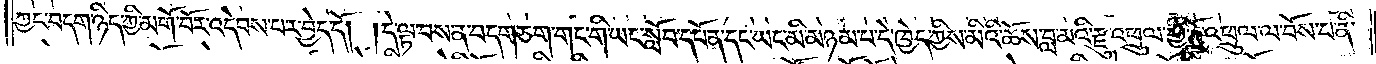ཀྱང་བདག་ཉིད་ཀྱི་མགོ་བོར་འདེབས་པར་བྱེད་དོ། །དེ་ལྟ་བས་ན་བདག་ཅག་གང་གི་ཡང་སློབ་དཔོན་དང་ཡང་མི་མཉམ་པ་དེ་ཁྱེད་ཀྱིས་མིའི་ཆོས་བླ་མའི་རྫུ་འཕྲུལ་གྱི་ཆོ་འཕྲུལ་ལ་བོས་པ་ནི་
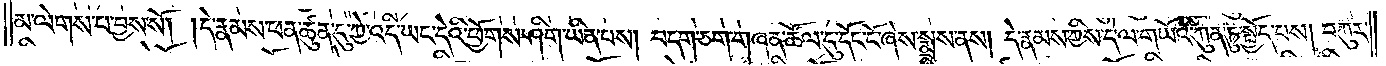མ་ལེགས་པ་བྱས་སོ། །དེ་རྣམས་ཕན་ཚུན་དུ་ཀྱེ་འདི་ཡང་དེའི་ཕྱོགས་ཤིག་ཡིན་པས། བདག་ཅག་གཞན་ཚོལ་དུ་དོང་ངོ་ཞེས་སྨྲས་ནས། དེ་རྣམས་ཀྱིས་དེ་ལ་གཡོའི་ཀུན་ཏུ་སྤྱོད་པས། བཀུར་
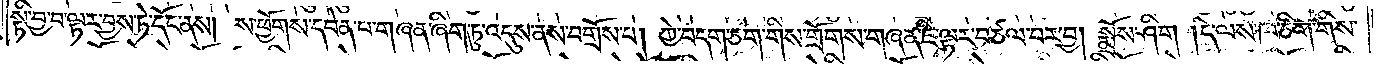སྟི་བྱ་བ་ལྟར་བྱས་ཏེ་དོང་ནས། ས་ཕྱོགས་དབེན་པ་གཞན་ཞིག་ཏུ་འདུས་ནས་བགྲོས་པ། ཀྱེ་བདག་ཅག་གིས་གྲོགས་གཞན་ཇི་ལྟར་བཙལ་བར་བྱ། སྨྲོས་ཤིག །དེ་ལས་ཁ་ཅིག་གིས་
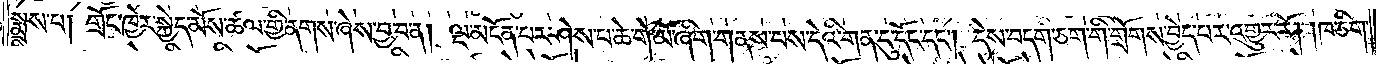སྨྲས་པ། གྲོང་ཁྱེར་སྐྱེད་མོས་ཚལ་གྱི་ནགས་ཞེས་བྱ་བ་ན། ལྔ་མངོན་པར་ཤེས་པ་ཆེ་གེ་མོ་ཞིག་གནས་པས་དེའི་གན་དུ་དོང་དང༌། དེས་བདག་ཅག་གི་གྲོགས་བྱེད་པར་འགྱུར་རོ། །ཁ་ཅིག་
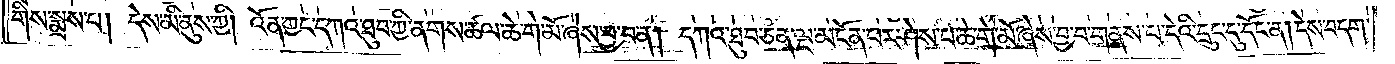གིས་སྨྲས་པ། དེས་མི་ནུས་ཀྱི། འོན་ཀྱང་དཀའ་ཐུབ་ཀྱི་ནགས་ཚལ་ཆེ་གེ་མོ་ཞེས་བྱ་བ་ན། དཀའ་ཐུབ་ཅན་ལྔ་མངོན་པར་ཤེས་པ་ཆེ་གེ་མོ་ཞེས་བྱ་བ་གནས་པ་དེའི་དྲུང་དུ་དོང་ན། དེས་བདག་
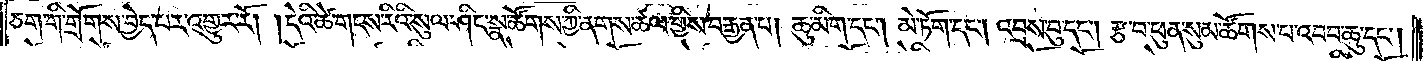ཅག་གི་གྲོགས་བྱེད་པར་འགྱུར་རོ། །དེའི་ཚེ་གངས་རིའི་སུལ་ཤིང་སྣ་ཚོགས་ཀྱི་ནགས་ཚལ་གྱིས་བརྒྱན་པ། ཆུ་མིག་དང༌། མེ་ཏོག་དང༌། འབྲས་བུ་དང༌། རྩ་བ་ཕུན་སུམ་ཚོགས་པ་འབབ་ཆུ་དང༌།
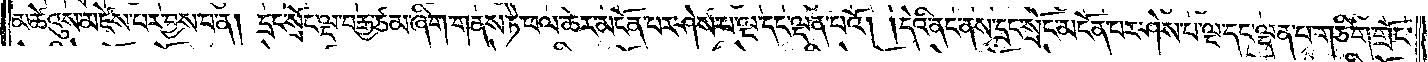མཚེའུས་མཛེས་པར་བྱས་པ་ན། དྲང་སྲོང་ལྔ་བརྒྱ་ཙམ་ཞིག་གནས་ཏེ་ཕལ་ཆེར་མངོན་པར་ཤེས་པ་ལྔ་དང་ལྡན་པའོ། །དེའི་ནང་ནས་དྲང་སྲོང་མངོན་པར་ཤེས་པ་ལྔ་དང་ལྡན་པ་གཅིག་གྲོང་
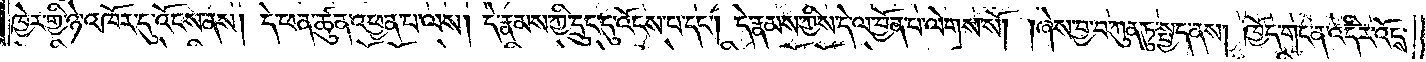ཁྱེར་གྱི་ཉེ་འཁོར་དུ་འོངས་ནས། དེ་ཕན་ཚུན་འཕྱན་པ་ལས། དེ་རྣམས་ཀྱི་དྲུང་དུ་འོངས་པ་དང༌། དེ་རྣམས་ཀྱིས་དེ་ལ་བྱོན་པ་ལེགས་སོ། །ཞེས་བྱ་བ་ཀུན་ཏུ་སྤྱད་ནས། ཁྱོད་གང་ན་འདིར་འོངས་
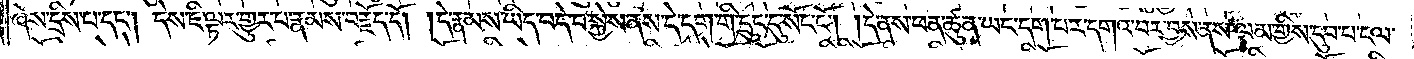ཞེས་དྲིས་པ་དང༌། དེས་ཇི་ལྟར་གྱུར་པ་རྣམས་བརྗོད་དོ། །དེ་རྣམས་ཡིད་བདེ་བ་སྐྱེས་ནས་དེ་དག་གི་དྲུང་དུ་སོང་ངོ༌། །དེ་ནས་ཕན་ཚུན་ཡང་དག་པར་དགའ་བར་བྱས་ནས་ལམ་གྱིས་དུབ་པ་ངལ་
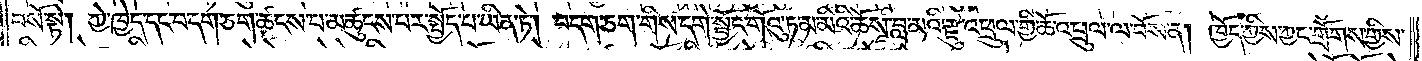བསོ་སྟེ། ཀྱེ་ཁྱེད་དང་བདག་ཅག་ཚངས་པ་མཚུངས་པར་སྤྱོད་པ་ཡིན་ཏེ། བདག་ཅག་གིས་དགེ་སྦྱོང་གོའུ་ཏ་མ་མིའི་ཆོས་བླ་མའི་རྫུ་འཕྲུལ་གྱི་ཆོ་འཕྲུལ་ལ་བོས་ན། ཁྱོད་ཀྱིས་ཀྱང་གྲོགས་གྱིས་
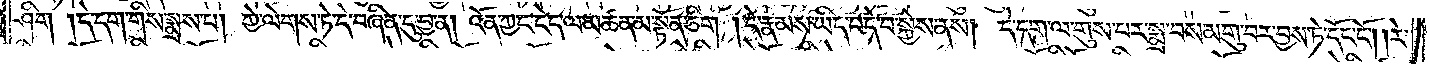ཤིག །དེ་དག་གིས་སྨྲས་པ། ཀྱེ་ལེགས་ཏེ་དེ་བཞིན་དུ་བྱ་ན། འོན་ཀྱང་ངེད་ལ་མཚན་མ་སྟོན་ཅིག །དེ་རྣམས་ཡིད་བདེ་བ་སྐྱེས་ནས། དེ་དག་ལ་གུས་པར་སྨྲ་བས་མགུ་བར་བྱས་ཏེ་དོང་ངོ༌། །རེ་
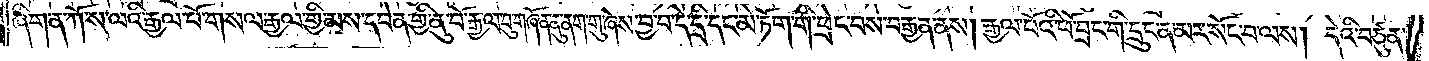ཞིག་ན་ཀོ་ས་ལའི་རྒྱལ་པོ་གསལ་རྒྱལ་གྱི་མས་དབེན་གྱི་ནུ་བོ་རྒྱལ་བུ་གཞོན་ནུ་ནག་གུ་ཞེས་བྱ་བ་དེ་དྲི་དང་མེ་ཏོག་གི་ཕྲེང་བས་བརྒྱན་ནས། རྒྱལ་པོའི་ཕོ་བྲང་གི་དྲུང་ན་མར་སོང་བ་ལས། དེའི་བཙུན་
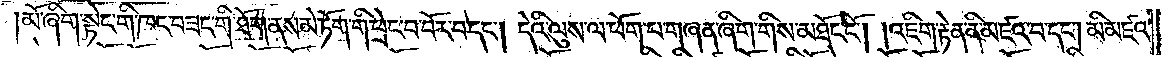མོ་ཞིག་སྟེང་གི་ཁང་བཟང་གི་ཐོག་ནས་མེ་ཏོག་གི་ཕྲེང་བ་བོར་བ་དང༌། དེའི་ལུས་ལ་ཕོག་པ་གཞན་ཞིག་གིས་མཐོང་ངོ༌། །འཇིག་རྟེན་ནི་མཛའ་བ་དང༌། མི་མཛའ་
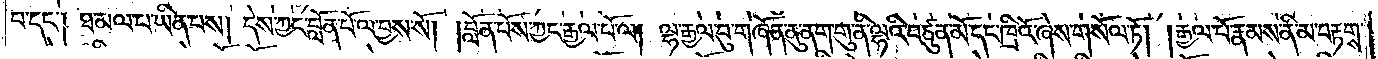བ་དང༌། ཐ་མལ་པ་ཡིན་པས། དེས་ཀྱང་བློན་པོ་ལ་བྱས་སོ། །བློན་པོས་ཀྱང་རྒྱལ་པོ་ལ། ལྷ་རྒྱལ་བུ་གཞོན་ནུ་ནག་གུ་ནི་ལྷའི་བཙུན་མོ་དང་ཁྲིའོ་ཞེས་གསོལ་ཏོ། །རྒྱལ་པོ་རྣམས་ནི་མ་བརྟགས་
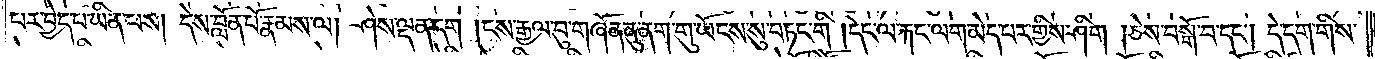པར་བྱེད་པ་ཡིན་པས། དེས་བློན་པོ་རྣམས་ལ། ཤེས་ལྡན་དག །ངས་རྒྱལ་བུ་གཞོན་ནུ་ནག་གུ་ཡོངས་སུ་བཏང་གི །དེང་ལ་རྐང་ལག་མེད་པར་གྱིས་ཤིག །ཅེས་བསྒོ་བ་དང༌། དེ་དག་གིས་
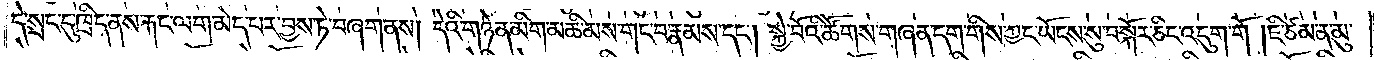དེ་སྲང་དུ་ཁྲིད་ནས་རྐང་ལག་མེད་པར་བྱས་ཏེ་བཞག་ནས། དེའི་གཉེན་མིག་མཆི་མས་གང་བ་རྣམས་དང༌། སྐྱེ་བོའི་ཚོགས་གཞན་དག་གིས་ཀྱང་ཡོངས་སུ་བསྐོར་ཅིང་འདུག་གོ །ཇི་ཙམ་ན་མུ་
